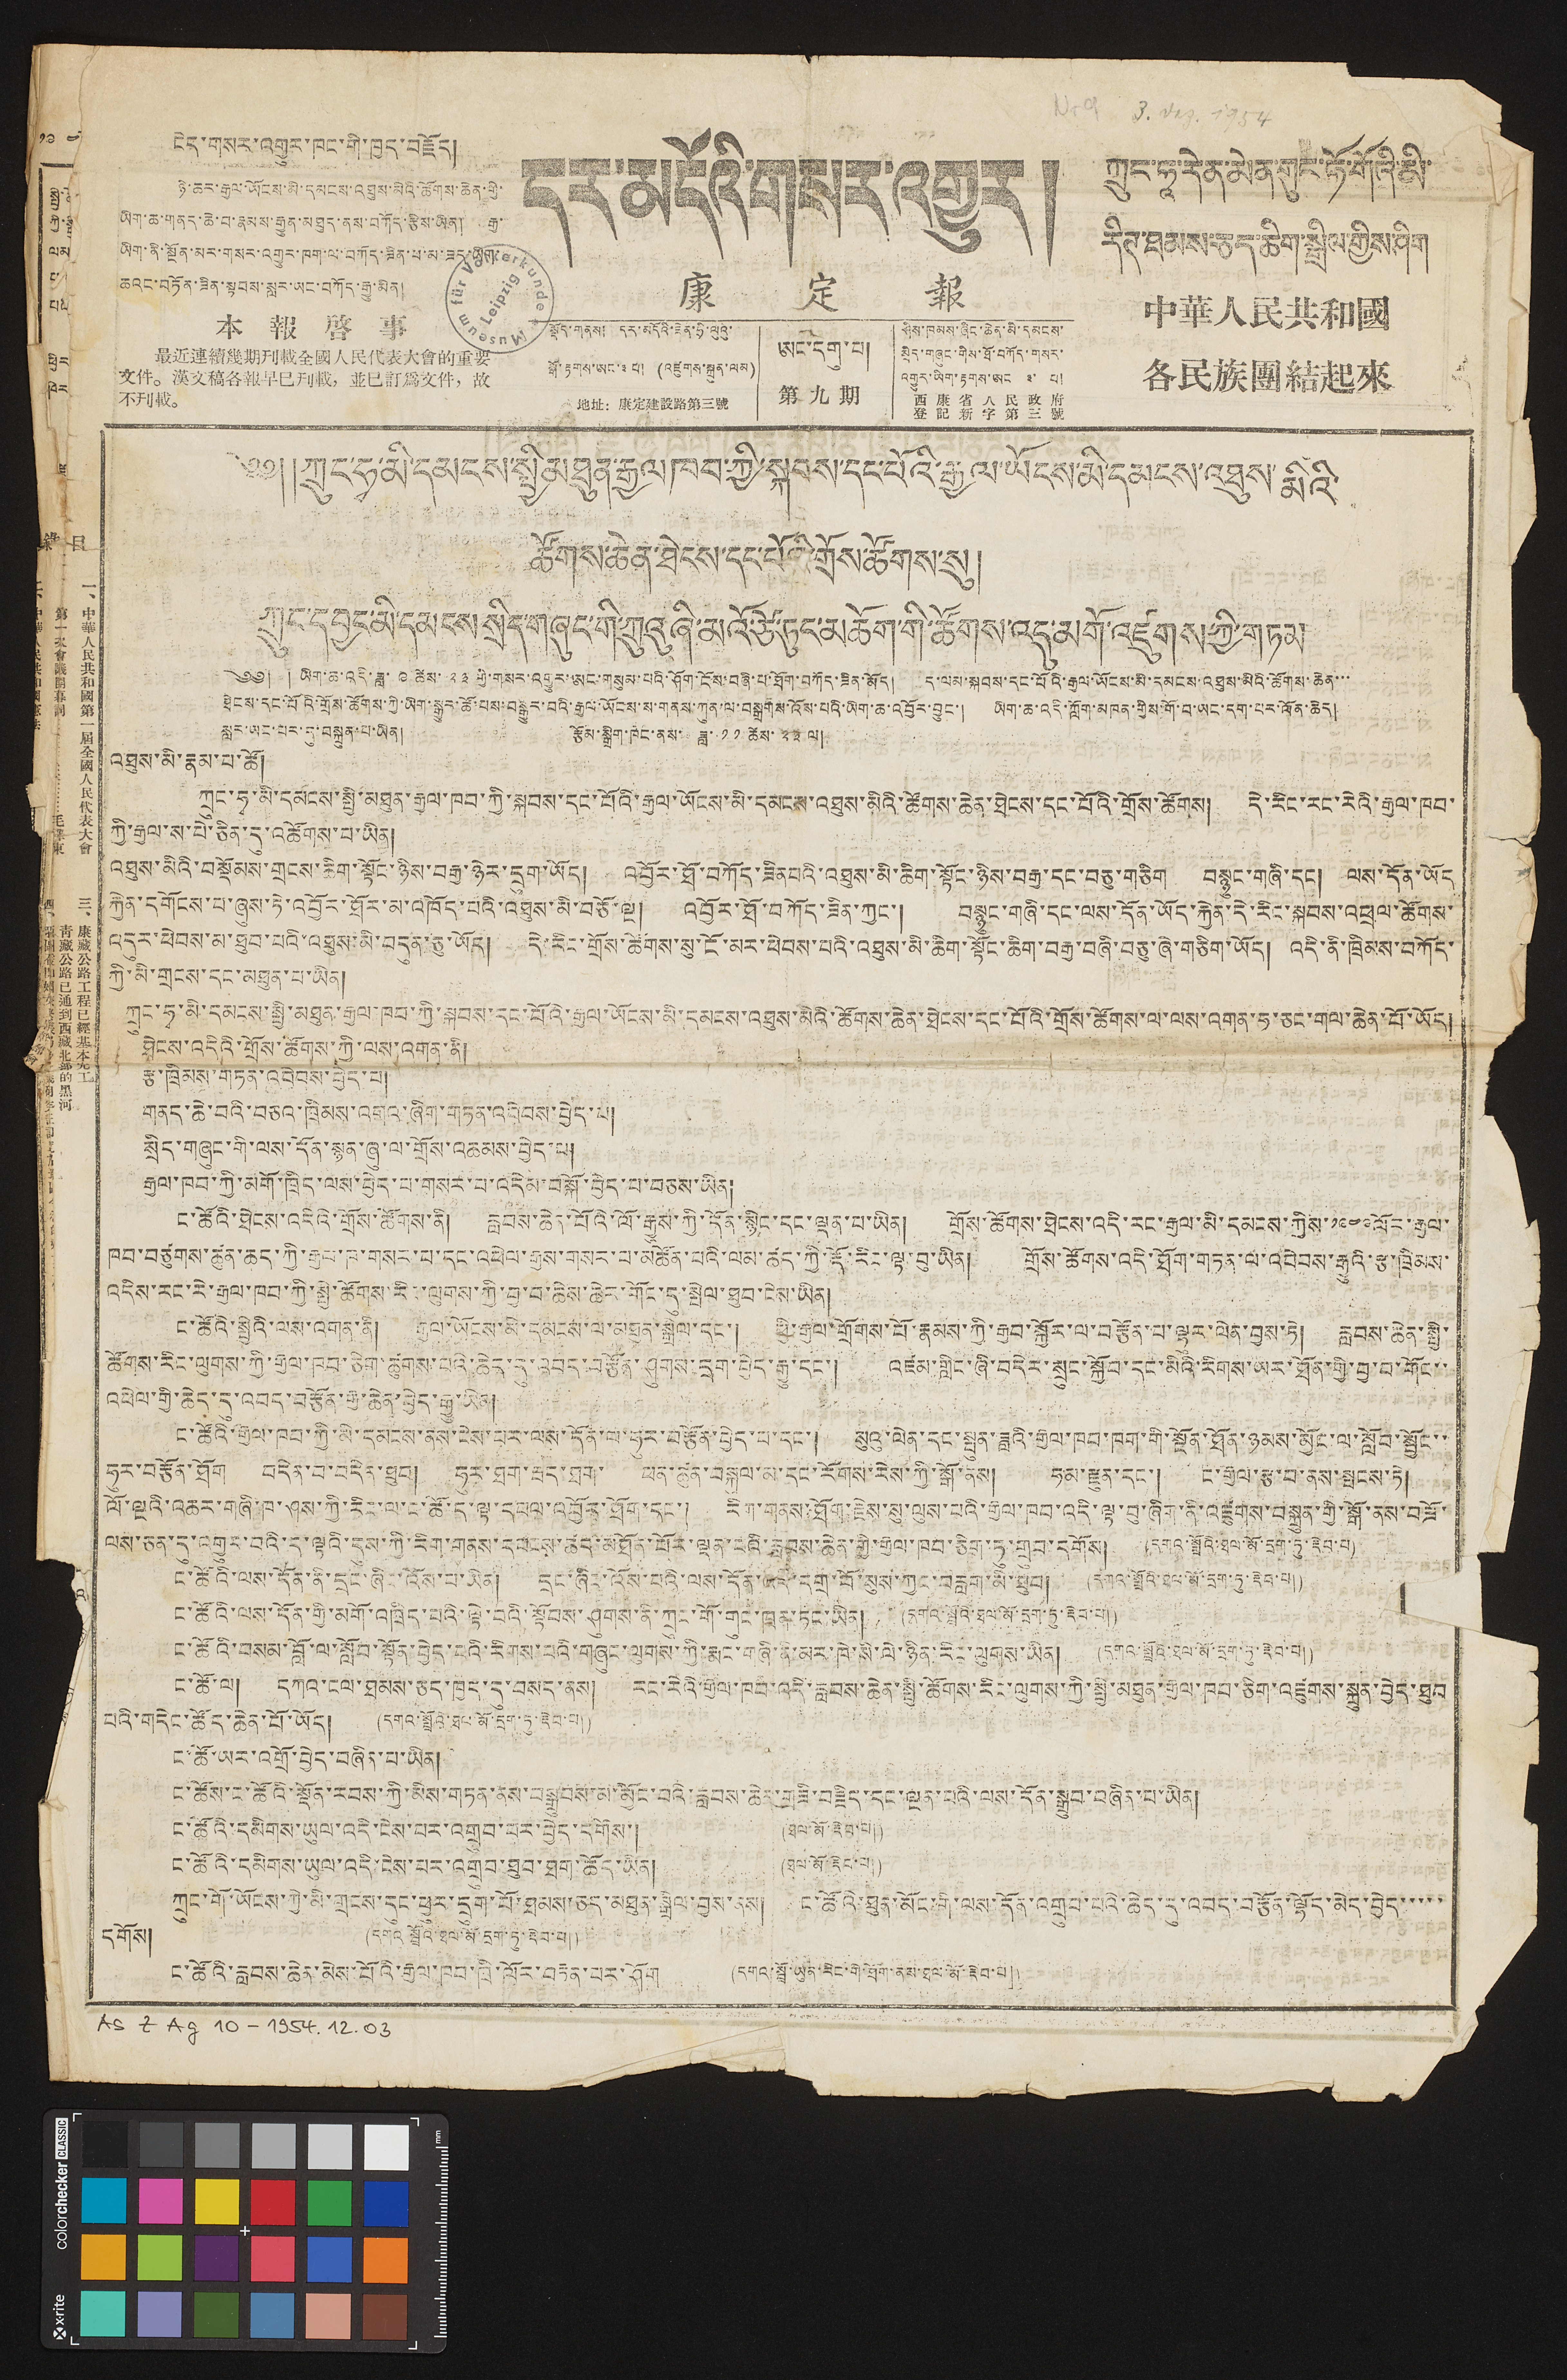དར་མདོའི་གསར་འགྱུར།
康 定 報
ངེད་གསར་འགྱུར་ཁང་གི་ཁྱད་བརྗོད།
ཉི་ཆར་རྒྱལ་ཡོངས་མི་དམངས་འཐུས་མིའི་ཚོགས་ཆེན་གྱི་
ཡིག་ཆ་གནད་ཆེ་བ་རྣམས་རྒྱུན་མཐུད་ནས་བཀོད་རྩིས་ཡིན། རྒྱ་
ཡིག་ནི་སྔོན་མར་གསར་འགྱུར་ཁག་ལ་བཀོད་ཟིན་པ་མ་ཟད་ཡིག་
ཆའང་བཏོན་ཟིན་སྟབས་སླར་ཡང་བཀོད་རྒྱུ་མིན།
本 報 啓 事
最近連續幾期刊載全國人民代表大會的重要
文件。漢文稿各報早已刊載，並已訂爲文件，故
不刊載。
ཀྲུང་ཧཱ་རེན་མེན་གུང་ཧོ་གོའི་མི་
རིཊ་ཐམས་ཅད་ཆིག་སྒྲིལ་གྱིས་ཤིག
中華人民共和國
各民族團結起來
༄༅། །ཀྲུང་ཧྭ་མི་དམངས་སྤྱི་མཐུན་རྒྱལ ཁབ་ཀྱི་སྐབས་དང་པོའི་རྒྱལ་ཡོངས་མི་དམངས་འཐུས་མིའི་
ཚོགས་ཆེན་ཐེངས་དང་པོའི་གྲོས་ཚོགས་སུ།
ཀྲུང་དབྱང་མི་དམངས་སྲིད་གཞུང་གི་ཀྲུའུ ཞི་མའོ་ཙེ་ཏུང་མཆོག་གི་ཚོགས་འདུ་མགོ་འཛུགས་ཀྱི་གཏམ
༄༅། །ཡིག་ཆ་འདི་ཟླ་ ༩ ཚེས་ ༢༣ གྱི་གསར་འགྱུར་ཨང་གསུམ་བའི་ཤོག་ངོས་བཞི་པ་ཐོག་བཀོད་ཟིན་མོད། ད་ལམ་སྐབས་དང་པོའི་རྒྱལ་ཡོངས་མི་དམངས་འཐུས་མིའི་ཚོགས་ཆེན་་་
ཐེངས་དང་པོའི་གྲོས་ཚོགས་ཀྱི་ཡིག་སྒྱུར་ཚོ་བས་བསྒྱུར་བའི་རྒྱལ་ཡོངས་ས་གནས་ཀུན་ལ་བསྒྲགས་འོས་པའི་ཡིག་ཆ་འབྱོར་བྱུང་། ཡིག་ཆ་འདི་ཀློག་མཁན་གྱིས་གོ་བ་ཡང་དག་པར་ལོན་ཆེད།
སླར་ཡང་པར་དུ་བསྐྲུན་པ་ཡིན། རྩོམ་སྒྲིག་ཁང་ནས་ ཟླ་ ༡༡ ཚེས་ ༢༣ ལ།
འཐུས་མི་རྣམ་པ་ཚོ།
ཀྲུང་ཧྭ་མི་དམངས་སྤྱི་མཐུན་རྒྱལ་ཁབ་ཀྱི་སྐབས་དང་པོའི་རྒྱལ་ཡོངས་མི་དམངས་འཐུས་མིའི་ཚོགས་ཆེན་ཐེངས་དང་པོའི་གྲོས་ཚོགས། དེ་རིང་རང་རེའི་རྒྱལ་ཁབ་
ཀྱི་རྒྱལ་ས་པེ་ཅིན་དུ་འཚོགས་པ་ཡིན།
འཐུས་མིའི་བསྡོམས་གྲངས་ཆིག་སྟོང་ཉིས་བརྒྱ་ཉེར་དྲུག་ཡོད། འབྱོར་ཐོ་བཀོད་ཟིན པའི་འཐུས་མི་ཆིག་སྟོང་ཉིས་བརྒྱ་དང་བཅུ་གཅིག བསྙུང་གཞི་དང། ལས་དོན་ཡོད
རྐྱེན་དགོངས་པ་ཞུས་ཏེ་འབྱོར་ཐོར་མ་འཁོད་པའི་འཐུས་མི་བཅོ་ལྔ། འབྱོར་ཐོ་བཀོད་ཟིན་ཀྱང་། བསྙུང་གཞི་དང་ལས་དོན་ཡོད་རྐྱེན་དེ་རིང་སྐབས་འཕྲལ་ཚོགས་
འདུར་ཕེབས་མ་ཐུབ་པའི་འཐུས་མི་བདུན་ཅུ་ཡོད། དེ་རིང་གྲོས་ཚོགས་སུ་ངོ་མར་ཕེབས་པའི་འཐུས་མི་ཆིག་སྟོང་ཆིག་བརྒྱ་བཞི་བཅུ་ཞི་གཅིག་ཡོད། འདི་ནི་ཁྲིམས་བཀོད་
ཀྱི་མི་གྲངས་དང་མཐུན་པ་ཡིན།
ཀྲུང་ཧྭ་མི་དམངས་སྤྱི་མཐུན་རྒྱལ་ཁབ་ཀྱི་སྐབས་དང་པོའི་རྒྱལ་ཡོངས་མི་དམངས་འཐུས་མིའི་ཚོགས་ཆེན་ཐེངས་དང་པོའི་གྲོས་ཚོགས་ལ་ལས་འགན་ཧ་ཅང་གལ་ཆེན་པོ་ཡོད།
ཐེངས་འདིའི་གྲོས་ཚོགས་ཀྱི་ལས་འགན་ནི།
རྩ་ཁྲིམས་གཏན་འབེབས་བྱེད་པ།
གནད་ཆེ་བའི་བཅའ་ཁྲིམས་འགའ་ཞིག་གཏན་འབེབས་བྱེད་པ།
སྲིད་གཞུང་གི་ལས་དོན་སྙན་ཞུ་ལ་གྲོས་འཆམས་བྱེད་པ།
རྒྱལ་ཁབ་ཀྱི་མགོ་ཁྲིད་ལས་བྱེད་པ་གསར་པ་འདེམ་བསྐོ་བྱེད་པ་བཅས་ཡིན།
ང་ཚོའི་ཐེངས་འདིའི་གྲོས་ཚོགས་ནི། རླབས་ཆེན་པོའི་ལོ་རྒྱུས་ཀྱི་དོན་སྙིང་དང་ལྡན་པ་ཡིན། གྲོས་ཚོགས་ཐེངས་འིད་རང་རྒྱལ་མི་དམངས་ཀྱིས་༡༩༤༩ལོར་རྒྱལ་
ཁབ་བཙུགས་ཚུན་ཆད་ཀྱི་རྒྱལ་ཁ་གསང་པ་དང་འཕེལ་རྒྱས་གསར་པ་མཚོན་པའི་ལམ་ཚད་ཀྱི་རྡོ་རིང་ལྟ་བུ་ཡིན། གྲོས་ཚོགས་འདི་ཐོག་གཏན་ལ་འབེབས་རྒྱུའི་རྩ་ཁྲིམས་
འདིས་རང་རེ་རྒྱལ་ཁབ་གྱི་སྤྱི་ཚོགས་རིང་ལུགས་ཀྱི་བྱ་བ་ཆེས་ཆེང་གོང་དུ་སྤེལ་ཐུབ་ངེས་ཡིན།
ང་ཚོའི་སྤྱིའི་ལས་འགན་ནི། རྒྱལ་ཡོངས་མི་དམངས་ལ་མཐུན་སྒྲིལ་དང་། ཕྱི་རྒྱལ་གྲོགས་པོ་རྣམས་ཀྱི་རྒྱབ་སྐྱོར་ལ་བརྩོན་པ་ལྷར་ལེན་བྱས་ཏེ། རླབས་ཆེན་སྤྱི་
ཚོགས་རིང་ལུགས་ཀྱི་རྒྱལ་ཁབ་ཅིག་ཚུགས་པའི་ཆེད་དུ་འབད་བརྩོན་ཤུགས་དྲག་བྱེད་རྒྱུ་དང་། འཛམ་གླིང་ཞི་བདེར་སྲུང་སྐྱོབ་དང་མིའི་རིགས་ཡར་ཐོན་གྱི་བྱ་བ་གོང་་
འཕེལ་གྱི་ཆེད་དུ་འབད་བརྩོན་རྒྱ་ཆེན་བྱེད་རྒྱུ་ཡིན།
ང་ཚོའི་རྒྱལ་ཁབ་ཀྱི་མི་དམངས་ནས་ངེས་པར་ལས་དོན་ལ་ཧུར་བརྩོན་བྱེད་པ་དང་། སུའུ་ལེན་དང་སྤུན་ཟླའི་རྒྱལ་ཁབ་ཁག་གི་སྔོན་ཐོན་ཉམས་མྱོང་ལ་སློབ་སྦྱོང་་
ཧུར་བརྩོན་ཐོག བདེན་པ་བདེན་ཐུབ། ཧུར་ཐག་རྦད་ཐག་ ཕན་ཚུན་བསྐུལ་མ་དང་རོགས་རེས་ཀྱི་སྒོ་ནས། ཧམ་རྫུན་དང་། ང་རྒྱལ་རྩ་བ་ནས་སྤངས་ཏེ།
ལོ་ལྔའི་འཆར་གཞི་ཁ་ཤས་ཀྱི་རིང་ལ་ང་ཚོ་ད་ལྟ་དཔལ་འབྱོར་ཐོག་དང་། རིག་གནས་ཐོག་རྗེས་སུ་ལུས་པའི་རྒྱལ་ཁབ་འདི་ལྟ་བུ་ཞིག་ནི་འཛུགས་བསྐྲུན་གྱི་སྒོ་ནས་བཟོ་
ལས་ཅན་དུ་འགྱུར་བའི་ད་ལྟའི་དུས་ཀྱི་རིག་གནས་དབངས་ཚད་མཐོན་པོར་ལྡན་པའི་རླབས་ཆེན་གྱི་རྒྱལ་ཁབ་ཅིག་ཏུ་གྲུབ་དགོས། (དགའ་སྒྲོའི་ཐལ་མོ་དྲག་ཏུ་རྡེབ་པ)
ང་ཚོའི་ལས་དོན་ནི་དྲང་ཞིང་འོས་པ་ཡིན། དྲང་ཞིང་འོས་པའི་ལས་དོན་འདི་དགྲ་བོ་སུས་ཀྱང་བརླག་མི་ཐུབ། (དགའ་སྤྲོའི་ཐལ་མོ་དྲག་ཏུ་རྡེབ་པ།)
ང་ཚོའི་ལས་དོན་གྱི་མགོ་འཁྲིད་པའི་ལྟེ་བའི་སྟོབས་ཤུགས་ནི་ཀྲུང་གོ་གུང་ཁྲན་ཏང་ཡིན། (དགའ་སྤྲོའི་ཐལ་མོ་དྲག་ཏུ་རྡེབ་པ།)
ང་ཚོའི་བསམ་བློ་ལ་སློབ་སྟོན་བྱེད་པའི་རིགས་པའི་གཞུང་ལུགས་ཀྱི་རྨང་གཞི་ནི་མར་ཁེ་སི་ལེ་ཉིན་རིང་ལུགས་ཡིན། (དགའ་སྤྲོའི་ཐལ་མོ་དྲག་ཏུ་རྡེབ་པ།)
ང་ཚོ་ལ། དཀའ་ངལ་ཐམས་ཅད་ཁྱད་དུ་བསད་ནས། རང་རེའི་རྒྱལ་ཁབ་འདི་རླབས་ཆེན་སྤྱི་ཚོགས་རིང་ལུགས་ཀྱི་སྤྱི་མཐུན་རྒྱལ་ཁབ་ཅིག་འཛུགས་སྐྲུན་བྱེད་ཐུབ
པའི་གདེང་ཚོད་ཆེན་པོ་ཡོད། (དགའ་སྤྲོའི་ཐལ་མོ་དྲག་ཏུ་རྡེབ་པ།)
ང་ཚོ་ཡར་འགྲོ་བྱེད་བཞིན་པ་ཡིན།
ང་ཚོས་ང་ཚོའི་སྡོན་རབས་ཀྱི་མིས་གཏན་ནས་བསྒྲུབས་མ་མྱོང་བའི་རླབས་ཆེན་གཟི་བརྗིད་དང་ལྔན་པའི་ལས་དོན་སྒྲུབ་བཞིན་པ་ཡིན།
ང་ཚོའི་དམིགས་ཡུལ་འདི་ངེས་པར་འགྲུབ་པར་བྱེད་དགོས་། (ཐལ་མོ་རྡེབ་པ།)
ང་ཚོའི་དམིགས་ཡུལ་འདི་ངེས་པར་འགྲུབ་ཐུབ་ཐག་ཆོད་ཡིན། (ཐལ་མོ་རྡེབ་པ།)
ཀྲུང་གོ་ཡོངས་ཀྱི་མི་གྲངས་དུང་ཕྱུར་དྲུག་པོ་ཐམས་ཅད་མཐུན་སྒྲིལ་བྱས་ནས། ང་ཚོའི་ཐུན་མོང་གི་ལས་དོན་འགྲུབ་པའི་ཆེད་དུ་འབད་བརྩོན་ལྷོད་མེད་བྱེད་་་་་
དགོས། (དགའ་སྤྲོའི་ཐལ་མོ་དྲག་ཏུ་རྡེབ་པ།)
ང་ཚོའི་རླབས་ཆེན་མེས་པོའི་རྒྱལ་ཁབ་ཁྲི་ལོར་བརྟན་པར་ཤོག (དགའ་སྤྲོ་ཡུན་རིང་གི་ཐོག་ནས་ཐལ་མོ་རྡེབ་པ།)
